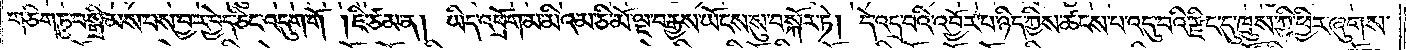གཅིག་ཏུ་བསྒྲིམས་པས་བྱ་ར་བྱེད་ཅིང་འདུག་གོ །ཇི་ཙམ་ན། ཡིད་འཕྲོག་མ་མིའམ་ཅི་མོ་ལྔ་བརྒྱས་ཡོངས་སུ་བསྐོར་ཏེ། དེ་འདྲ་བའི་འབྱོར་བ་ཉིད་ཀྱིས་ཚངས་པ་འདུ་བའི་རྫིང་དུ་ཁྲུས་ཀྱི་ཕྱིར་ཞུགས་
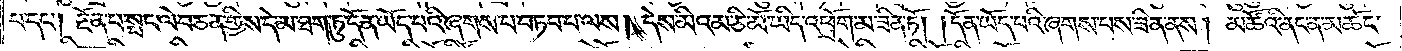པ་དང༌། རྔོན་པ་སྤང་ལེབ་ཅན་གྱིས་དེ་མ་ཐག་ཏུ་དོན་ཡོད་པའི་ཞགས་པ་བཏབ་པ་ལས། དེས་མིའམ་ཅི་མོ་ཡིད་འཕྲོག་མ་ཟིན་ཏོ། །དོན་ཡོད་པའི་ཞགས་པས་ཟིན་ནས། མཚོའི་ནང་ན་མཆོང་
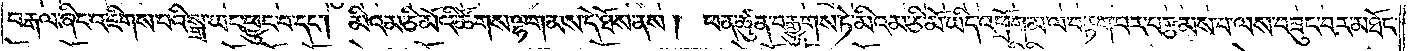བརྒལ་ཞིང་འཇིགས་པའི་སྒྲ་ཡང་ཕྱུང་བ་དང༌། མིའམ་ཅི་མོའི་ཚོགས་ལྷག་མས་དེ་ཐོས་ནས། ཕན་ཚུན་བརྒྱུགས་ཏེ་མིའམ་ཅི་མོ་ཡིད་འཕྲོག་མ་ལ་བརྟག་པར་བརྩམས་པ་ལས་བཟུང་བར་མཐོང་
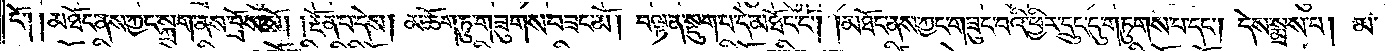ངོ༌། །མཐོང་ནས་ཀྱང་སྐྲག་ནས་བྲོས་སོ། །རྔོན་པ་དེས། མཆོག་ཏུ་གཟུགས་བཟང་མོ། །བལྟ་ན་སྡུག་པ་དེ་མཐོང་ངོ༌། །མཐོང་ནས་ཀྱང་གཟུང་བའི་ཕྱིར་དྲུང་དུ་གཏུགས་པ་དང༌། དེས་སྨྲས་པ། མ་
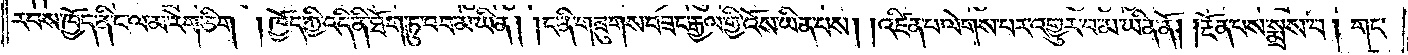རབས་ཁྱོད་ནི་ང་ལ་མ་རེག་ཅིག །ཁྱོད་ཀྱི་འདི་ནི་ཐོག་ཏུ་བབ་མ་ཡིན། །ང་ནི་གཟུགས་བཟང་རྒྱལ་གྱི་འོས་ཡིན་པས། །འཛིན་པ་ལེགས་པར་འགྱུར་བ་མ་ཡིན་ནོ། །རྔོན་པས་སྨྲས་པ། གང་
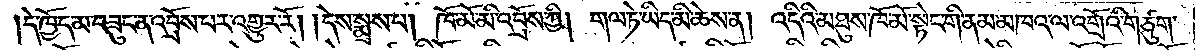།དེ་ཁྱོད་མ་བཟུང་ན་འབྲོས་པར་འགྱུར་རོ། །དེས་སྨྲས་པ། ཁོ་མོ་མི་འབྲོས་ཀྱི། གལ་ཏེ་ཡིད་མི་ཆེས་ན། འདིའི་མཐུས་ཁོ་མོ་སྟེང་གི་ནམ་མཁའ་ལ་འགྲོའི་གཙུག་
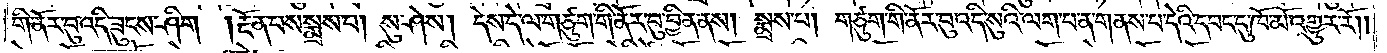གི་ནོར་བུ་འདི་ཟུངས་ཤིག །རྔོན་པས་སྨྲས་པ། སུ་ཤེས། དེས་དེ་ལ་གཙུག་གི་ནོར་བུ་བྱིན་ནས། སྨྲས་པ། གཙུག་གི་ནོར་བུ་འདི་སུའི་ལག་པ་ན་གནས་པ་དེའི་དབང་དུ་ཁོ་མོ་འགྱུར་རོ། །
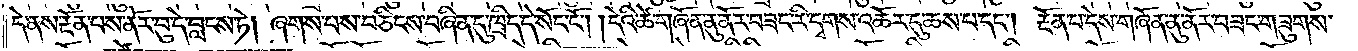དེ་ནས་རྔོན་པས་ནོར་བུ་དེ་བླངས་ཏེ། ཞགས་པས་བཅིངས་བཞིན་དུ་ཁྲིད་དེ་སོང་ངོ༌། །དེའི་ཚེ་གཞོན་ནུ་ནོར་བཟང་རི་དྭགས་འཆོར་དུ་ཆས་པ་དང༌། རྔོན་པ་དེས་གཞོན་ནུ་ནོར་བཟང་གཟུགས་
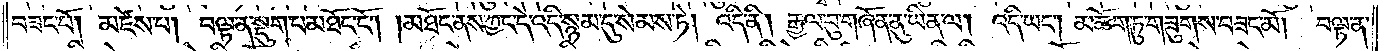བཟང་པོ། །མཛེས་པ། བལྟ་ན་སྡུག་པ་མཐོང་ངོ༌། །མཐོང་ནས་ཀྱང་དེ་འདི་སྙམ་དུ་སེམས་ཏེ། འདི་ནི། རྒྱལ་བུ་གཞོན་ནུ་ཡིན་ལ། འདི་ཡང༌། མཆོག་ཏུ་གཟུགས་བཟང་མོ། །བལྟ་ན་
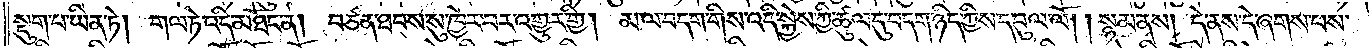སྡུག་པ་ཡིན་ཏེ། གལ་ཏེ་འདི་མཐོང་ན། བཙན་ཐབས་སུ་ཁྱེར་བར་འགྱུར་གྱི། མ་ལ་བདག་གིས་འདི་སྐྱེས་ཀྱི་ཚུལ་དུ་བདག་ཉིད་ཀྱིས་དབུལ་ལོ། །སྙམ་ནས། དེ་ནས་དེ་ཞགས་པས་
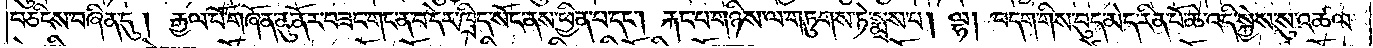བཅིངས་བཞིན་དུ། རྒྱལ་པོ་གཞོན་ནུ་ནོར་བཟང་གང་ན་བ་དེར་ཁྲིད་སོང་ནས་ཕྱིན་པ་དང༌། རྐང་པ་གཉིས་ལ་གཏུགས་ཏེ་སྨྲས་པ། ལྷ། བདག་གིས་བུད་མེད་རིན་པོ་ཆེ་འདི་སྐྱེས་སུ་འཚལ་
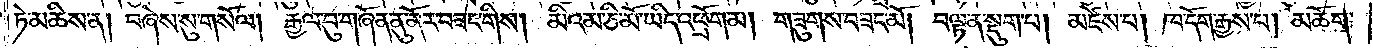ཏེ་མཆིས་ན། བཞེས་སུ་གསོལ། རྒྱལ་བུ་གཞོན་ནུ་ནོར་བཟང་གིས། མིའམ་ཅི་མོ་ཡིད་འཕྲོག་མ། གཟུགས་བཟང་མོ། བལྟ་ན་སྡུག་པ། མཛེས་པ། ཁ་དོག་རྒྱས་པ། མཆོག་
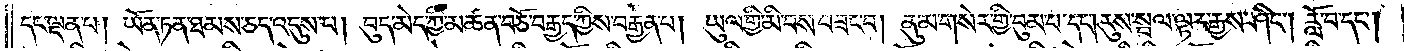དང་ལྡན་པ། ཡོན་ཏན་ཐམས་ཅད་འདུས་པ། བུད་མེད་ཀྱི་མཚན་བཅོ་བརྒྱད་ཀྱིས་བརྒྱན་པ། ཡུལ་གྱི་མི་བས་བཟང་པ། ནུ་མ་གསེར་གྱི་བུམ་པ་དང༌། རུས་སྦལ་ལྟར་རྒྱས་ཤིང༌། རློ་བ་དང༌།
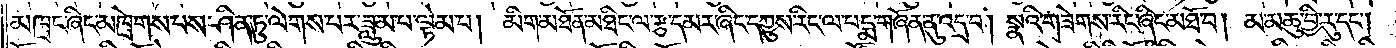མཁྲང་ཞིང་མཁྲེགས་པས་ཤིན་ཏུ་ལེགས་པར་ཟླུམ་པ་ལྟེམ་པ། མིག་མཐོང་མཐིང་ལ་རྩ་དམར་ཞིང་དཀྱུས་རིང་ལ་པདྨ་གཞོན་ནུ་འདྲ་བ། སྣའི་གཟེགས་རིང་ཞིང་མཐོ་བ། མ་མཆུ་བྱི་རུ་དང༌།
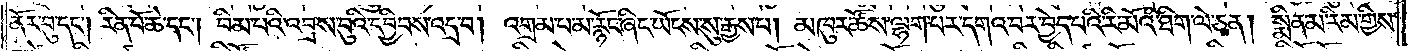ནོར་བུ་དང༌། རིན་པོ་ཆེ་དང༌། བིམ་པའི་འབྲས་བུའི་དབྱིབས་འདྲ་བ། འགྲམ་པ་མ་རྙོང་ཞིང་ཡོངས་སུ་རྒྱས་པ། མཁུར་ཚོས་ལྷག་པར་དགའ་བར་བྱེད་པའི་རི་མོའི་ཐིག་ལེ་ཅན། སྨིན་མ་རིམ་གྱིས་
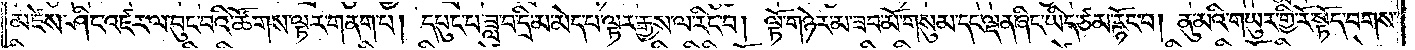མཛེས་ཤིང་འཛར་ལ་བུང་བའི་ཚོགས་ལྟར་གནག་པ། དཔུང་པ་ཟླ་བ་དྲི་མ་མེད་པ་ལྟར་རྒྱས་ལ་རིང་བ། ལྟོ་གཉེར་མ་ཟབ་མོ་གསུམ་དང་ལྡན་ཞིང་ཡིད་ཙམ་རྙོང་བ། ནུ་མའི་གཡུར་གྱི་རོ་སྟོད་བགས་
